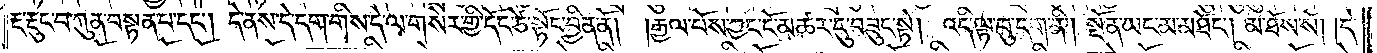རྔ་རྡུང་བ་ཀུན་བསྟན་པ་དང༌། དེ་ནས་དེ་དག་གིས་དེ་ལ་གསེར་གྱི་དོང་ཙེ་སྟོང་བྱིན་ནོ། །རྒྱལ་པོས་ཀྱང་ངོ་མཚར་དུ་བཟུང་སྟེ། འདི་ལྟ་བུ་དག་ནི། སྔོན་ཡང་མ་མཐོང༌། མ་ཐོས་སོ། །དེ་
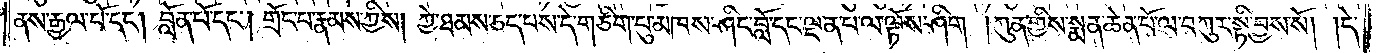ནས་རྒྱལ་པོ་དང༌། བློན་པོ་དང༌། གྲོང་པ་རྣམས་ཀྱིས། ཀྱེ་ཐམས་ཅད་པས་དེ་གཅིག་པུ་མཁས་ཤིང་བློ་དང་ལྡན་པ་ལ་ལྟོས་ཤིག །ཀུན་གྱིས་སྨན་ཆེན་པོ་ལ་བཀུར་སྟི་བྱས་སོ། །དེ་
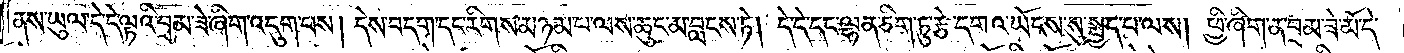ནས་ཡུལ་དེ་དེ་ལྟའི་བྲམ་ཟེ་ཞིག་འདུག་པས། དེས་བདག་དང་རིགས་མཉམ་པ་ལས་ཆུང་མ་བླངས་ཏེ། དེ་དེ་དང་ལྷན་ཅིག་ཏུ་རྩེ་དགའ་ཡོངས་སུ་སྤྱད་པ་ལས། ཕྱི་ཞིག་ན་བྲམ་ཟེ་མོ་དེ་
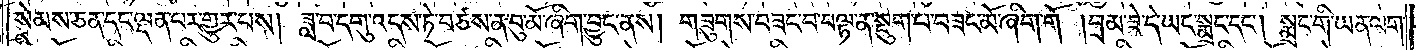སེམས་ཅན་དང་ལྡན་པར་གྱུར་པས། ཟླ་བ་དགུ་འདས་ཏེ་བཙས་ན་བུ་མོ་ཞིག་བྱུང་ནས། གཟུགས་བཟང་བ་བལྟ་ན་སྡུག་པ་བཟང་མོ་ཞིག་གོ །བྲམ་ཟེ་དེ་ཡང་སྨྲང་དང༌། སྨྲང་གི་ཡན་ལག་
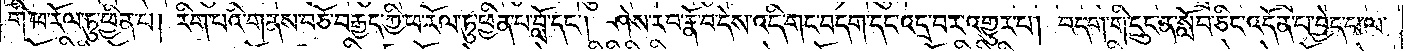གི་ཕ་རོལ་ཏུ་ཕྱིན་པ། རིག་པའི་གནས་བཅོ་བརྒྱད་ཀྱི་ཕ་རོལ་ཏུ་ཕྱིན་པ་བློ་དང༌། ཤེས་རབ་རྣོ་བ་དེས་འདི་གང་བདག་དང་འདྲ་བར་འགྱུར་པ། བདག་གི་དྲུང་ན་སློབ་ཅིང་འདོན་པ་བྱེད་པ་ལ་
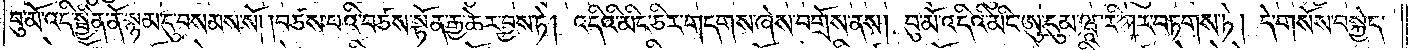བུ་མོ་འདི་སྦྱིན་ནོ་སྙམ་དུ་བསམས་སོ། །བཙས་པའི་བཙས་སྟོན་རྒྱ་ཆེར་བྱས་ཏེ། འདིའི་མིང་ཅིར་གདགས་ཞེས་བགྲོས་ནས། བུ་མོ་འདིའི་མིང་ཨུ་དུམ་ཝཱ་རི་ཀར་བཏགས་ཏེ། དེ་གསོས་བསྐྱེད་
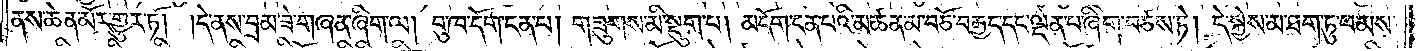ནས་ཆེན་མོར་གྱུར་ཏོ། །དེ་ནས་བྲམ་ཟེ་གཞན་ཞིག་ལ། བུ་ཁ་དོག་ངན་པ། གཟུགས་མི་སྡུག་པ། མདོག་ངན་པའི་མཚན་མ་བཅོ་བརྒྱད་དང་ལྡན་པ་ཞིག་བཙས་ཏེ། དེ་སྐྱེས་མ་ཐག་ཏུ་ཕ་མས་
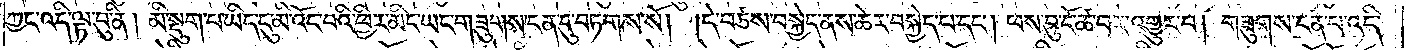ཀྱང་འདི་ལྟ་བུ་ནི། མི་སྡུག་པ་ཡིད་དུ་མི་འོང་བའི་ཕྱིར་མིང་ཡང་གཟུགས་ངན་དུ་བཏགས་སོ། །དེ་བཙས་བསྐྱེད་ནས་ཆེར་བསྐྱེད་པ་དང༌། ཕས་བུ་ངོ་ཚ་བར་འགྱུར་བ། གཟུགས་ངན་པ་འདི་
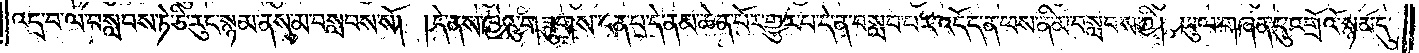འདྲ་བ་ལ་བསླབས་ཏེ་ཅི་རུང་སྙམ་ནས་མ་བསླབས་སོ། །དེ་ནས་ཁྱེའུ་གཟུགས་ངན་པ་དེ་ནམ་ཆེན་པོར་གྱུར་པ་དེ་ན་བསླབ་པར་འདོད་ན་ཕས་ནི་མ་བསླབས་ཀྱི། ཡུལ་གཞན་དུ་འགྲོའོ་སྙམ་དུ་
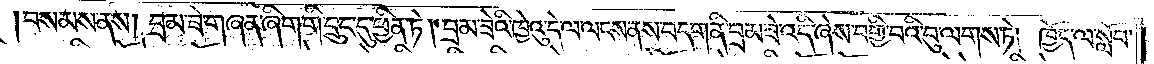བསམས་ནས། བྲམ་ཟེ་གཞན་ཞིག་གི་དྲུང་དུ་ཕྱིན་ཏེ། བྲམ་ཟེའི་ཁྱེའུ་དེ་ལ་ལངས་ནས་བདག་ནི་བྲམ་ཟེ་འདི་ཞེས་བགྱི་བའི་བུ་ལགས་ཏེ། ཁྱོད་ལ་སློབ་
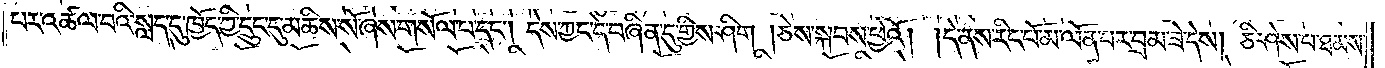པར་འཚལ་བའི་སླད་དུ་ཁྱོད་ཀྱི་དྲུང་དུ་མཆིས་སོ་ཞེས་གསོལ་པ་དང༌། དེས་ཀྱང་དེ་བཞིན་དུ་གྱིས་ཤིག །ཅེས་སྐབས་ཕྱེའོ། །དེ་ནས་རིང་པོ་མ་ལོན་པར་བྲམ་ཟེ་དེས། ཅི་ཤེས་པ་ཐམས་
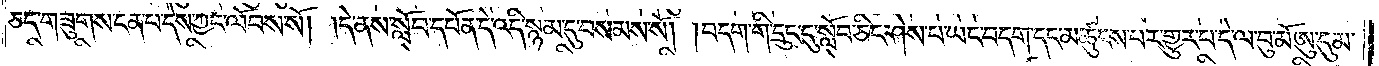ཅད་གཟུགས་ངན་པ་དེས་ཀྱང་ལོབས་སོ། །དེ་ནས་སློབ་དཔོན་དེ་འདི་སྙམ་དུ་བསམས་སོ། །བདག་གི་དྲུང་དུ་སློབ་ཅིང་ཤེས་པ་ཡང་བདག་དང་མཚུངས་པར་གྱུར་པ་དེ་ལ་བུ་མོ་ཨུ་དུམ་
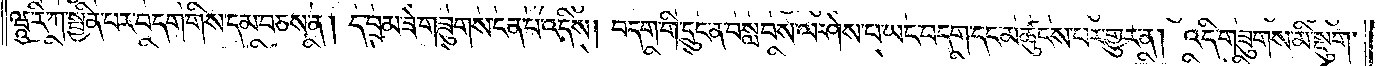ཝཱ་རི་ཀ་སྦྱིན་པར་བདག་གིས་དམ་བཅས་ན། ད་བྲམ་ཟེ་གཟུགས་ངན་པ་འདིས། བདག་གི་དྲུང་ན་བསླབས་ལ་ཤེས་པ་ཡང་བདག་དང་མཚུངས་པར་གྱུར་ན། འདི་གཟུགས་མི་སྡུག་
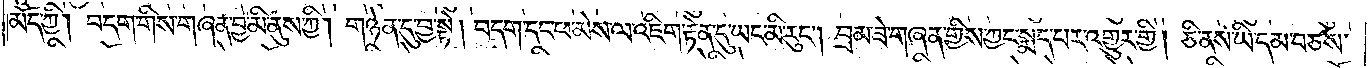མོད་ཀྱི། བདག་གིས་གཞན་བྱ་མི་ནུས་ཀྱི། གཉེན་དུ་བྱ་སྟེ། བདག་དང་ཕ་མེས་ལ་འཇིག་རྟེན་དུ་ཡང་མི་རུང༌། བྲམ་ཟེ་གཞན་གྱིས་ཀྱང་སྨད་པར་འགྱུར་གྱི། ཅི་ནས་ཡི་དམ་བཅས་
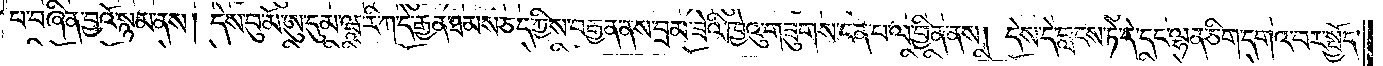པ་བཞིན་བྱའོ་སྙམ་ནས། དེས་བུ་མོ་ཨུ་དུམ་ཝཱ་རི་ཀ་དེ་རྒྱན་ཐམས་ཅད་ཀྱིས་བརྒྱན་ནས་བྲམ་ཟེའི་ཁྱེའུ་གཟུགས་ངན་པ་ལ་བྱིན་ནས། དེས་དེ་བླངས་ཏེ་དེ་དང་ལྷན་ཅིག་དགའ་བར་སྤྱོད་
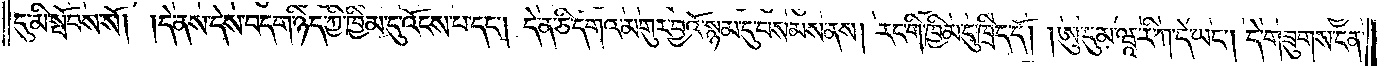དུ་མི་སྤོབས་སོ། །དེ་ནས་དེས་བདག་ཉིད་ཀྱི་ཁྱིམ་དུ་འོངས་པ་དང༌། དེ་ན་ཅི་དགའ་མགུར་བྱའོ་སྙམ་དུ་བསམས་ནས། རང་གི་ཁྱིམ་དུ་ཁྲིད་དོ། །ཨུ་དུམ་ཝཱ་རི་ཀ་དེ་ཡང༌། དེ་གཟུགས་ངན་
